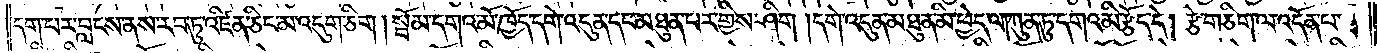དག་པར་བླངས་ནས་རབ་ཏུ་འཛིན་ཅིང་མ་འདུག་ཅིག །སྦོམ་དགའ་མོ་ཁྱོད་དགེ་འདུན་དང་མཐུན་པར་གྱིས་ཤིག །དགེ་འདུན་མཐུན་མི་ཕྱེད་ལ། ཀུན་ཏུ་དགའ་མི་རྩོད་དེ། རྩེ་གཅིག་ལ་འདོན་པ་
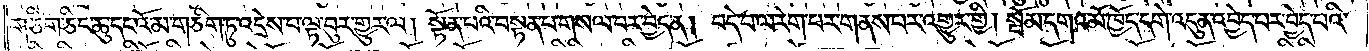གཅིག་ཅིང་ཆུ་དང་འོ་མ་གཅིག་ཏུ་འདྲེས་པ་ལྟ་བུར་གྱུར་ལ། སྟོན་པའི་བསྟན་པ་གསལ་བར་བྱེད་ན། བདེ་བ་ལ་རེག་པར་གནས་པར་འགྱུར་གྱི། སྦོམ་དགའ་མོ་ཁྱོད་དགེ་འདུན་འབྱེད་པར་བྱེད་པའི་
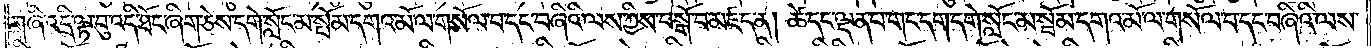གཞི་འདི་ལྟ་བུ་འདི་ཐོང་ཞིག་ཅེས་དགེ་སློང་མ་སྤོམ་དགའ་མོ་ལ་གསོལ་བ་དང་བཞིའི་ལས་ཀྱིས་བསྒོ་བ་མཛད་ན། ཚེ་དང་ལྡན་པ་གང་དག་དགེ་སློང་མ་སྦོམ་དགའ་མོ་ལ་གསོལ་བ་དང་བཞིའི་ལས་
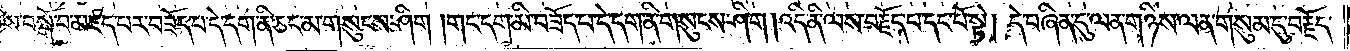ཀྱིས་བསྒོ་བ་མཛད་པར་བཟོད་པ་དེ་དག་ནི་ཅང་མ་གསུངས་ཤིག །གང་དག་མི་བཟོད་པ་དེ་དག་ནི་གསུངས་ཤིག །འདི་ནི་ལས་བརྗོད་པ་དང་པོ་སྟེ། དེ་བཞིན་དུ་ལན་གཉིས་ལན་གསུམ་དུ་བརྗོད་
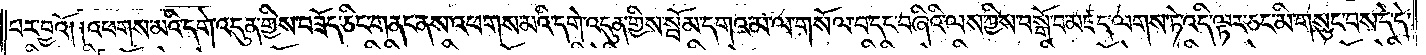པར་བྱའོ། །འཕགས་མའི་དགེ་འདུན་གྱིས་བཟོད་ཅིང་གནང་ནས་འཕགས་མའི་དགེ་འདུན་གྱིས་སྦོམ་དགའ་མ་ལ་གསོལ་བ་དང་བཞིའི་ལས་ཀྱིས་བསྒོ་བ་མཛད་ལགས་ཏེ་འདི་ལྟར་ཅང་མི་གསུང་བས་དེ་དེ་
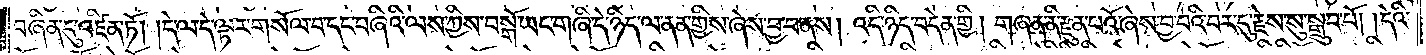བཞིན་དུ་འཛིན་ཏོ། །དེ་ལ་དེ་ལྟར་གསོལ་བ་དང་བཞིའི་ལས་ཀྱིས་བསྒོ་ཡང་གཞི་དེ་ཉིད་ལ་ནན་གྱིས་ཞེས་བྱ་བ་ནས། འདི་ཉིད་བདེན་གྱི། གཞན་ནི་རྫུན་པའོ་ཞེས་བྱ་བའི་བར་དུ་རྗེས་སུ་སྒྲུབ་པོ། །དེའི་
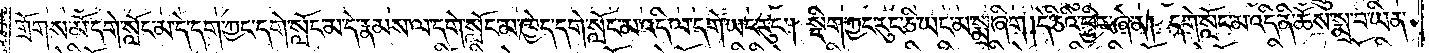གྲོགས་མོ་དགེ་སློང་མ་དེ་དག་ཀྱང་དགེ་སློང་མ་དེ་རྣམས་ལ་དགེ་སློང་མ་ཁྱེད་དགེ་སློང་མ་འདི་ལ་དགེ་ཡང་རུང༌། སྡིག་ཀྱང་རུང་ཅི་ཡང་མ་སྨྲ་ཞིག །དེ་ཅིའི་ཕྱིར་ཞེ་ན། དགེ་སློང་མ་འདི་ནི་ཆོས་སྨྲ་བ་ཡིན་
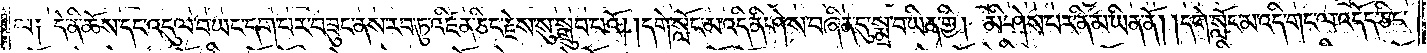ལ༑ དེ་ནི་ཆོས་དང་འདུལ་བ་ཡང་དག་པར་བཟུང་ནས་རབ་ཏུ་འཛིན་ཅིང་རྗེས་སུ་སྒྲུབ་པའོ། །དགེ་སློང་མ་འདི་ནི་ཤེས་བཞིན་དུ་སྨྲ་བ་ཡིན་གྱི། མི་ཤེས་པར་ནི་མ་ཡིན་ནོ། །དགེ་སློང་མ་འདི་གང་ལ་འདོད་ཅིང་
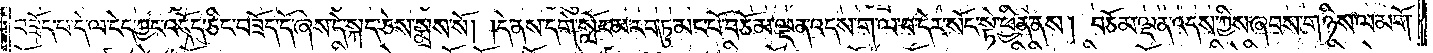བཟོད་པ་དེ་ལ་ངེད་ཀྱང་འདོད་ཅིང་བཟོད་དོ་ཞེས་དེ་སྐད་ཅེས་སྨྲས་སོ། །དེ་ནས་དགེ་སློང་མ་རབ་ཏུ་མང་པོ་བཅོམ་ལྡན་འདས་ག་ལ་བ་དེར་སོང་སྟེ་ཕྱིན་ནས། བཅོམ་ལྡན་འདས་ཀྱིས་ཞབས་གཉིས་ལ་མགོ་
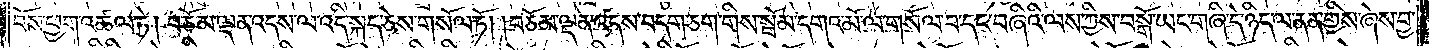བོས་ཕྱག་འཚལ་ཏེ། བཅོམ་ལྡན་འདས་ལ་འདི་སྐད་ཅེས་གསོལ་ཏོ། །བཅོམ་ལྡན་འདས་བདག་ཅག་གིས་སྦོམ་དགའ་མོ་ལ་གསོལ་བ་དང་བཞིའི་ལས་ཀྱིས་བསྒོ་ཡང་གཞི་དེ་ཉིད་ལ་ནན་གྱིས་ཞེས་བྱ་
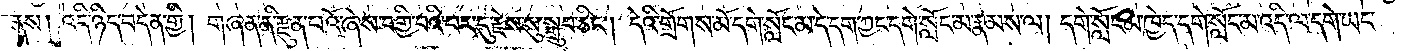ནས། འདི་ཉིད་བདེན་གྱི། གཞན་ནི་རྫུན་པའོ་ཞེས་བགྱི་བའི་བར་དུ་རྗེས་སུ་སྒྲུབ་ཅིང༌། དེའི་གྲོགས་མོ་དགེ་སློང་མ་དེ་དག་ཀྱང་དགེ་སློང་མ་རྣམས་ལ། དགེ་སློང་མ་ཁྱེད་དགེ་སློང་མ་འདི་ལ་དགེ་ཡང་
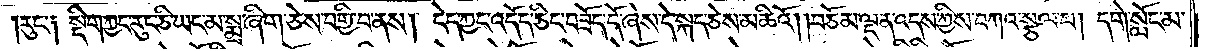རུང་༑ སྡིག་ཀྱང་རུང་ཅི་ཡང་མ་སྨྲ་ཞིག་ཅེས་བགྱི་བ་ནས། ངེད་ཀྱང་འདོད་ཅིང་བཟོད་དོ་ཞེས་དེ་སྐད་ཅེས་མཆིའོ། །བཅོམ་ལྡན་འདས་ཀྱིས་བཀའ་སྩལ་པ། དགེ་སློང་མ་
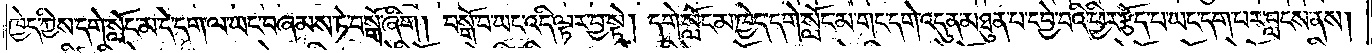ཁྱེད་ཀྱིས་དགེ་སློང་མ་དེ་དག་ལ་ཡང་བཞམས་ཏེ་བསྒོ་ཞིག །བསྒོ་བ་ཡང་འདི་ལྟར་བྱ་སྟེ། དགེ་སློང་མ་ཁྱེད་དགེ་སློང་མ་གང་དགེ་འདུན་མཐུན་པ་དབྱེ་བའི་ཕྱིར་རྩོད་པ་ཡང་དག་པར་བླངས་ནས།
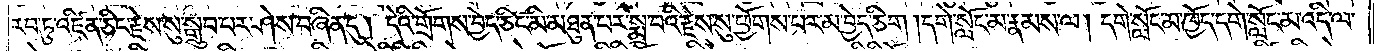རབ་ཏུ་འཛིན་ཅིང་རྗེས་སུ་སྒྲུབ་པར་ཤེས་བཞིན་ཏུ། དེའི་གྲོགས་བྱེད་ཅིང་མི་མཐུན་པར་སྨྲ་བའི་རྗེས་སུ་ཕྱོགས་པར་མ་བྱེད་ཅིག །དགེ་སློང་མ་རྣམས་ལ། དགེ་སློང་མ་ཁྱོད་དགེ་སློང་མ་འདི་ལ་
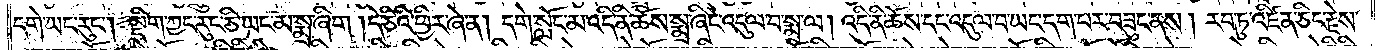དགེ་ཡང་རུང༌། སྡིག་ཀྱང་རུང་ཅི་ཡང་མ་སྨྲ་ཞིག །དེ་ཅིའི་ཕྱིར་ཞེ་ན། དགེ་སློང་མ་འདི་ནི་ཆོས་སྨྲ་ཞིང་འདུལ་བ་སྨྲ་ལ། འདི་ནི་ཆོས་དང་འདུལ་བ་ཡང་དག་པར་བཟུང་ནས། རབ་ཏུ་འཛིན་ཅིང་རྗེས་
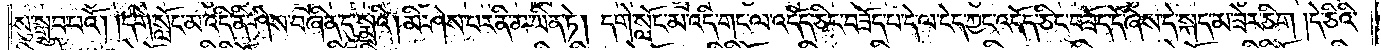སུ་སྒྲུབ་པའོ། །དགེ་སློང་མ་འདི་ནི་ཤེས་བཞིན་དུ་སྨྲའི། མི་ཤེས་པར་ནི་མ་ཡིན་ཏེ། དགེ་སློང་མ་འདི་གང་ལ་འདོད་ཅིང་བཟོད་པ་དེ་ལ་ངེད་ཀྱང་འདོད་ཅིང་བཟོད་དོ་ཞེས་དེ་སྐད་མ་ཟེར་ཅིག །དེ་ཅིའི་
